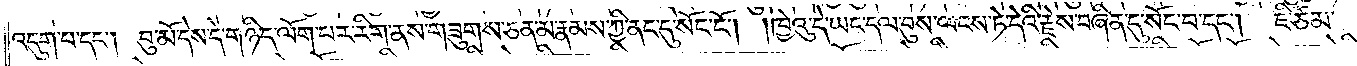འདུག་པ་དང༌། བུ་མོ་དེས་དེ་གཉིད་ལོག་པར་རིག་ནས་གཟུགས་ཅན་མ་རྣམས་ཀྱི་ནང་དུ་སོང་ངོ༌། །ཁྱེའུ་དེ་ཡང་དལ་བུས་ལངས་ཏེ་དེའི་རྗེས་བཞིན་དུ་སོང་བ་དང༌། ཇི་ཙམ་
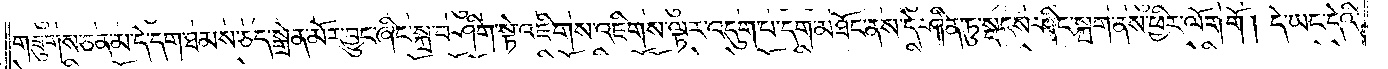གཟུགས་ཅན་མ་དེ་དག་ཐམས་ཅད་སྒྲེན་མོར་བྱུང་ཞིང་སྐྲ་བཤིག་སྟེ་འཇིགས་འཇིགས་ལྟར་འདུག་པ་དག་མཐོང་ནས་དེ་ཤིན་ཏུ་སྡངས་ཤིང་སྐྲག་ནས་ཕྱིར་ལོག་གོ །དེ་ཡང་དེའི་
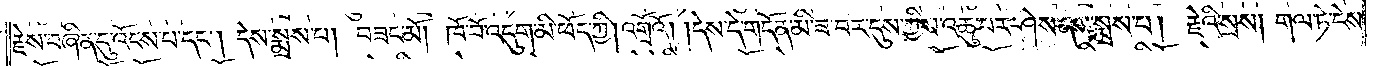རྗེས་བཞིན་དུ་འོངས་པ་དང༌། དེས་སྨྲས་པ། བཟང་མོ། ཁོ་བོ་འདུག་མི་ཕོད་ཀྱི། འགྲོའོ། །དེས་དེ་གདོན་མི་ཟ་བར་དུས་ཀྱིས་འཆུ་བར་ཤེས་ནས་སྨྲས་པ། རྗེའི་སྲས། གལ་ཏེ་ངེས་
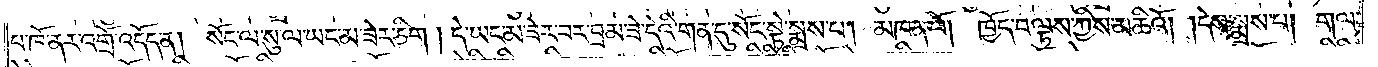པ་ཁོ་ནར་འགྲོ་འདོད་ན། སོང་ལ་སུ་ལ་ཡང་མ་ཟེར་ཅིག །དེ་ཡང་མ་ཟེར་བར་བྲམ་ཟེ་དེའི་གན་དུ་སོང་སྟེ་སྨྲས་པ། མཁན་པོ། ཁྱོད་བལྟས་ཀྱིས་མཆིའོ། །དེས་སྨྲས་པ། གལ་
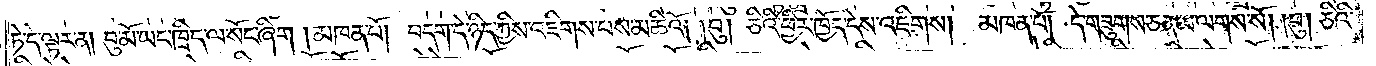ཏེ་དེ་ལྟར་ན། བུ་མོ་ཡང་ཁྲིད་ལ་སོང་ཞིག །མཁན་པོ། བདག་དེ་ཉིད་ཀྱིས་འཇིགས་པས་མཆིའོ། །བུ། ཅིའི་ཕྱིར་ཁྱོད་དེས་འཇིགས། མཁན་པོ། དེ་གཟུགས་ཅན་མ་ལགས་སོ། །བུ། ཅིའི་
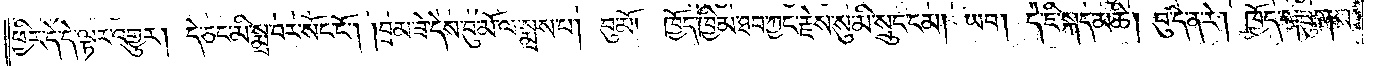ཕྱིར་དེ་དེ་ལྟར་འགྱུར། དེ་ཅང་མི་སྨྲ་བར་སོང་ངོ༌། །བྲམ་ཟེ་དེས་བུ་མོ་ལ་སྨྲས་པ། བུ་མོ། ཁྱོད་ཁྱིམ་ཐབ་ཀྱང་རྗེས་སུ་མི་སྲུང་ངམ། ཡབ། དེ་ཇི་སྐད་མཆི། བུ་དེ་ན་རེ། ཁྱོད་གཟུགས་
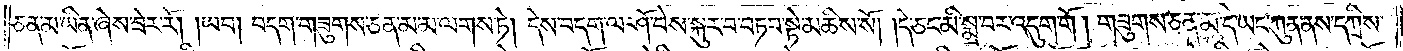ཅན་མ་ཡིན་ཞེས་ཟེར་རོ། །ཡབ། བདག་གཟུགས་ཅན་མ་མ་ལགས་ཏེ། དེས་བདག་ལ་ཤོ་བེས་སྐུར་བ་བཏབ་སྟེ་མཆིས་སོ། །དེ་ཅང་མི་སྨྲ་བར་འདུག་གོ །གཟུགས་ཅན་མ་དེ་ཡང་ཀུན་ནས་དཀྲིས་
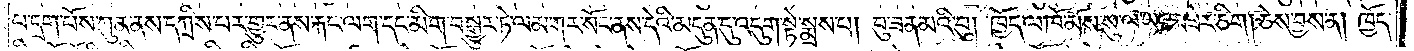པ་དྲག་པོས་ཀུན་ནས་དཀྲིས་པར་གྱུར་ནས་རྐང་ལག་དང་མིག་བསྒྱུར་ཏེ་ལམ་གར་སོང་ནས་དེའི་མདུན་དུ་འདུག་སྟེ་སྨྲས་པ། བུ་ཟན་མའི་བུ། ཁྱོད་ལ་ཁོ་མོས་སུ་ལ་ཡང་མ་ཟེར་ཅིག །ཅེས་བྱས་ན། ཁྱོད་
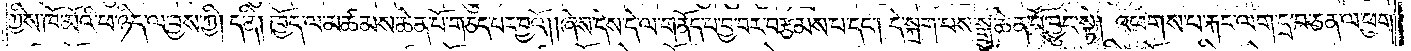ཀྱིས་ཁོ་མོའི་ཕ་ཉིད་ལ་བྱས་ཀྱི། ད་ནི། ཁྱོད་ལ་མཚམས་ཆེན་པོ་གཅད་པར་བྱའོ། །ཞེས་དེས་དེ་ལ་གནོད་པ་བྱ་བར་བརྩམས་པ་དང༌། དེ་སྐྲག་པས་སྒྲ་ཆེན་པོ་བྱུང་སྟེ། འཕགས་པ་རྐང་ལག་དྲ་བ་ཅན་ལ་ཕྱག་
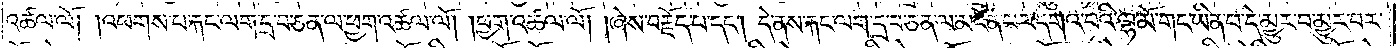འཚལ་ལོ། །འཕགས་པ་རྐང་ལག་དྲ་བ་ཅན་ལ་ཕྱག་འཚལ་ལོ། །ཕྱག་འཚལ་ལོ། །ཞེས་བརྗོད་པ་དང༌། དེ་ནས་རྐང་ལག་དྲ་བ་ཅན་ལ་མངོན་པར་དགའ་བའི་ལྷ་མོ་གང་ཡིན་པ་དེ་མྱུར་བ་མྱུར་བར་
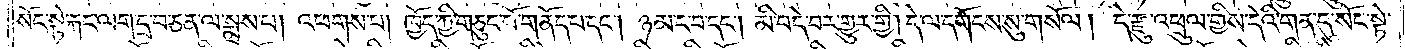སོང་སྟེ་རྐང་ལག་དྲ་བ་ཅན་ལ་སྨྲས་པ། འཕགས་པ། ཁྱོད་ཀྱི་གཅུང་པོ་གནོད་པ་དང༌། ཉམ་ང་བ་དང༌། མི་བདེ་བར་གྱུར་གྱི། དེ་ལ་དགོངས་སུ་གསོལ། དེ་རྫུ་འཕྲུལ་གྱིས་དེའི་གན་དུ་སོང་སྟེ་
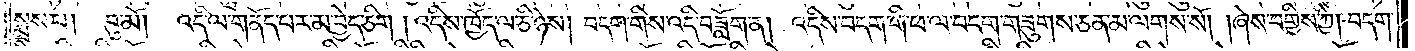སྨྲས་པ། བུ་མོ། འདི་ལ་གནོད་པར་མ་བྱེད་ཅིག །འདིས་ཁྱོད་ལ་ཅི་ཉེས། བདག་གིས་འདི་བཟློག་ན། འདིས་བདག་གི་ཕ་ལ་བདག་གཟུགས་ཅན་མ་ལགས་སོ། །ཞེས་བགྱིས་ཀྱི། བདག་
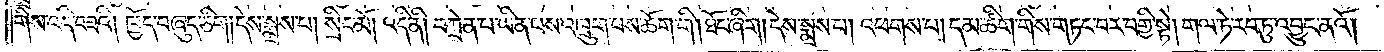གིས་འདི་བཟའི། ཁྱོད་བཞུད་ཅིག །དེས་སྨྲས་པ། སྲིང་མོ། འདི་ནི། བཀྲེན་པ་ཡིན་པས་འཁྲུག་པས་ཆོག་གི །ཐོང་ཞིག །དེས་སྨྲས་པ། འཕགས་པ། དམ་ཚིག་གིས་གཏང་བར་བགྱི་སྟེ། གལ་ཏེ་རབ་ཏུ་འབྱུང་ནའོ། །
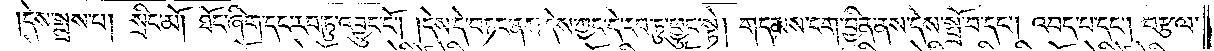དེས་སྨྲས་པ། སྲིང་མོ། ཐོང་ཞིག་དང་རབ་ཏུ་འབྱུང་ངོ༌། །དེས་དེ་བཏང་ནས་དེས་ཀྱང་དེ་རབ་ཏུ་ཕྱུང་སྟེ། གདམས་ངག་བྱིན་ནས་དེས་སྤྲོ་བ་དང༌། འབད་པ་དང༌། བརྩལ་
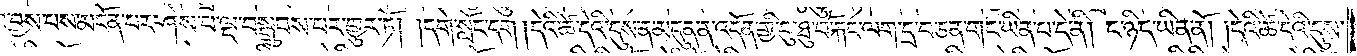བ་བྱས་པས་མངོན་པར་ཤེས་པ་ལྔ་བསྒྲུབས་པར་གྱུར་ཏོ། །དགེ་སློང་དག །དེའི་ཚེ་དེའི་དུས་ན་མདུན་ན་འདོན་གྱི་བུ་ཐུ་བོ་རྐང་ལག་དྲ་བ་ཅན་གང་ཡིན་པ་དེ་ནི། ང་ཉིད་ཡིན་ནོ། །དེའི་ཚེ་དེའི་དུས་
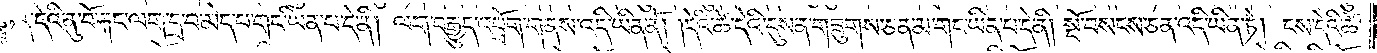ན་དེའི་ནུ་བོ་རྐང་ལག་དྲ་བ་མེད་པ་གང་ཡིན་པ་དེ་ནི། ལག་བརྒྱུད་འབྲོག་གནས་འདི་ཡིན་ནོ། །དེའི་ཚེ་དེའི་དུས་ན་གཟུགས་ཅན་མ་གང་ཡིན་པ་དེ་ནི། སྔོ་བསངས་ཅན་འདི་ཡིན་ཏེ། ངས་དེའི་ཚེ་
